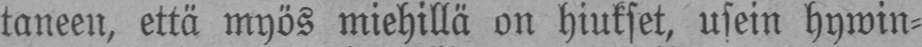taneen, että myös miehillä on hiukset, usein hywin-
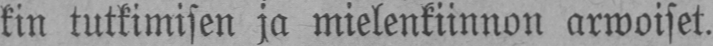kin tutkimisen ja mielenkiinnon arwoiset.
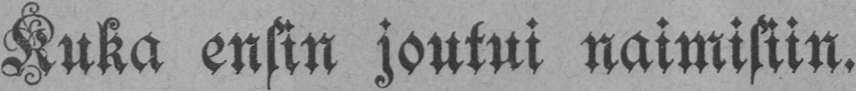Kuka ensin joutui naimisiin.
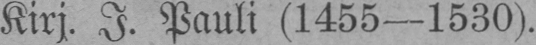Kirj. J. Pauli (1455—1530).
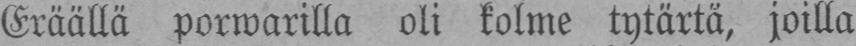Eräällä porwarilla oli kolme tytärtä, joilla
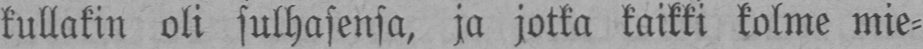kullakin oli sulhasensa, ja jotka kaikki kolme mie-
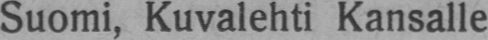Suomi, Kuvalehti Kansalle
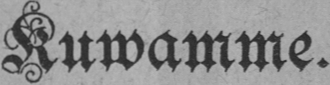Kuwamme.
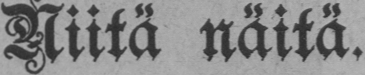Niitä näitä.
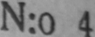N:o 4
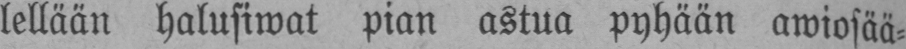lellään halusiwat pian astua pyhään awiosää-
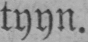tyyn.
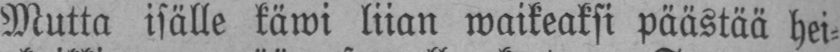Mutta isälle käwi liian waikeaksi päästää hei-
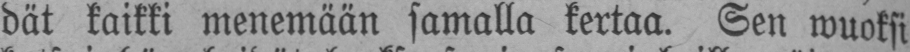dät kaikki menemään samalla kertaa. Sen wuoksi
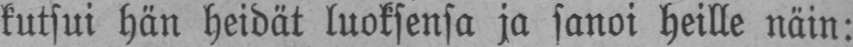kutsui hän heidät luoksensa ja sanoi heille näin:
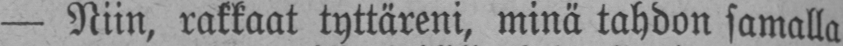— Niin, rakkaat tyttäreni, minä tahdon samalla
